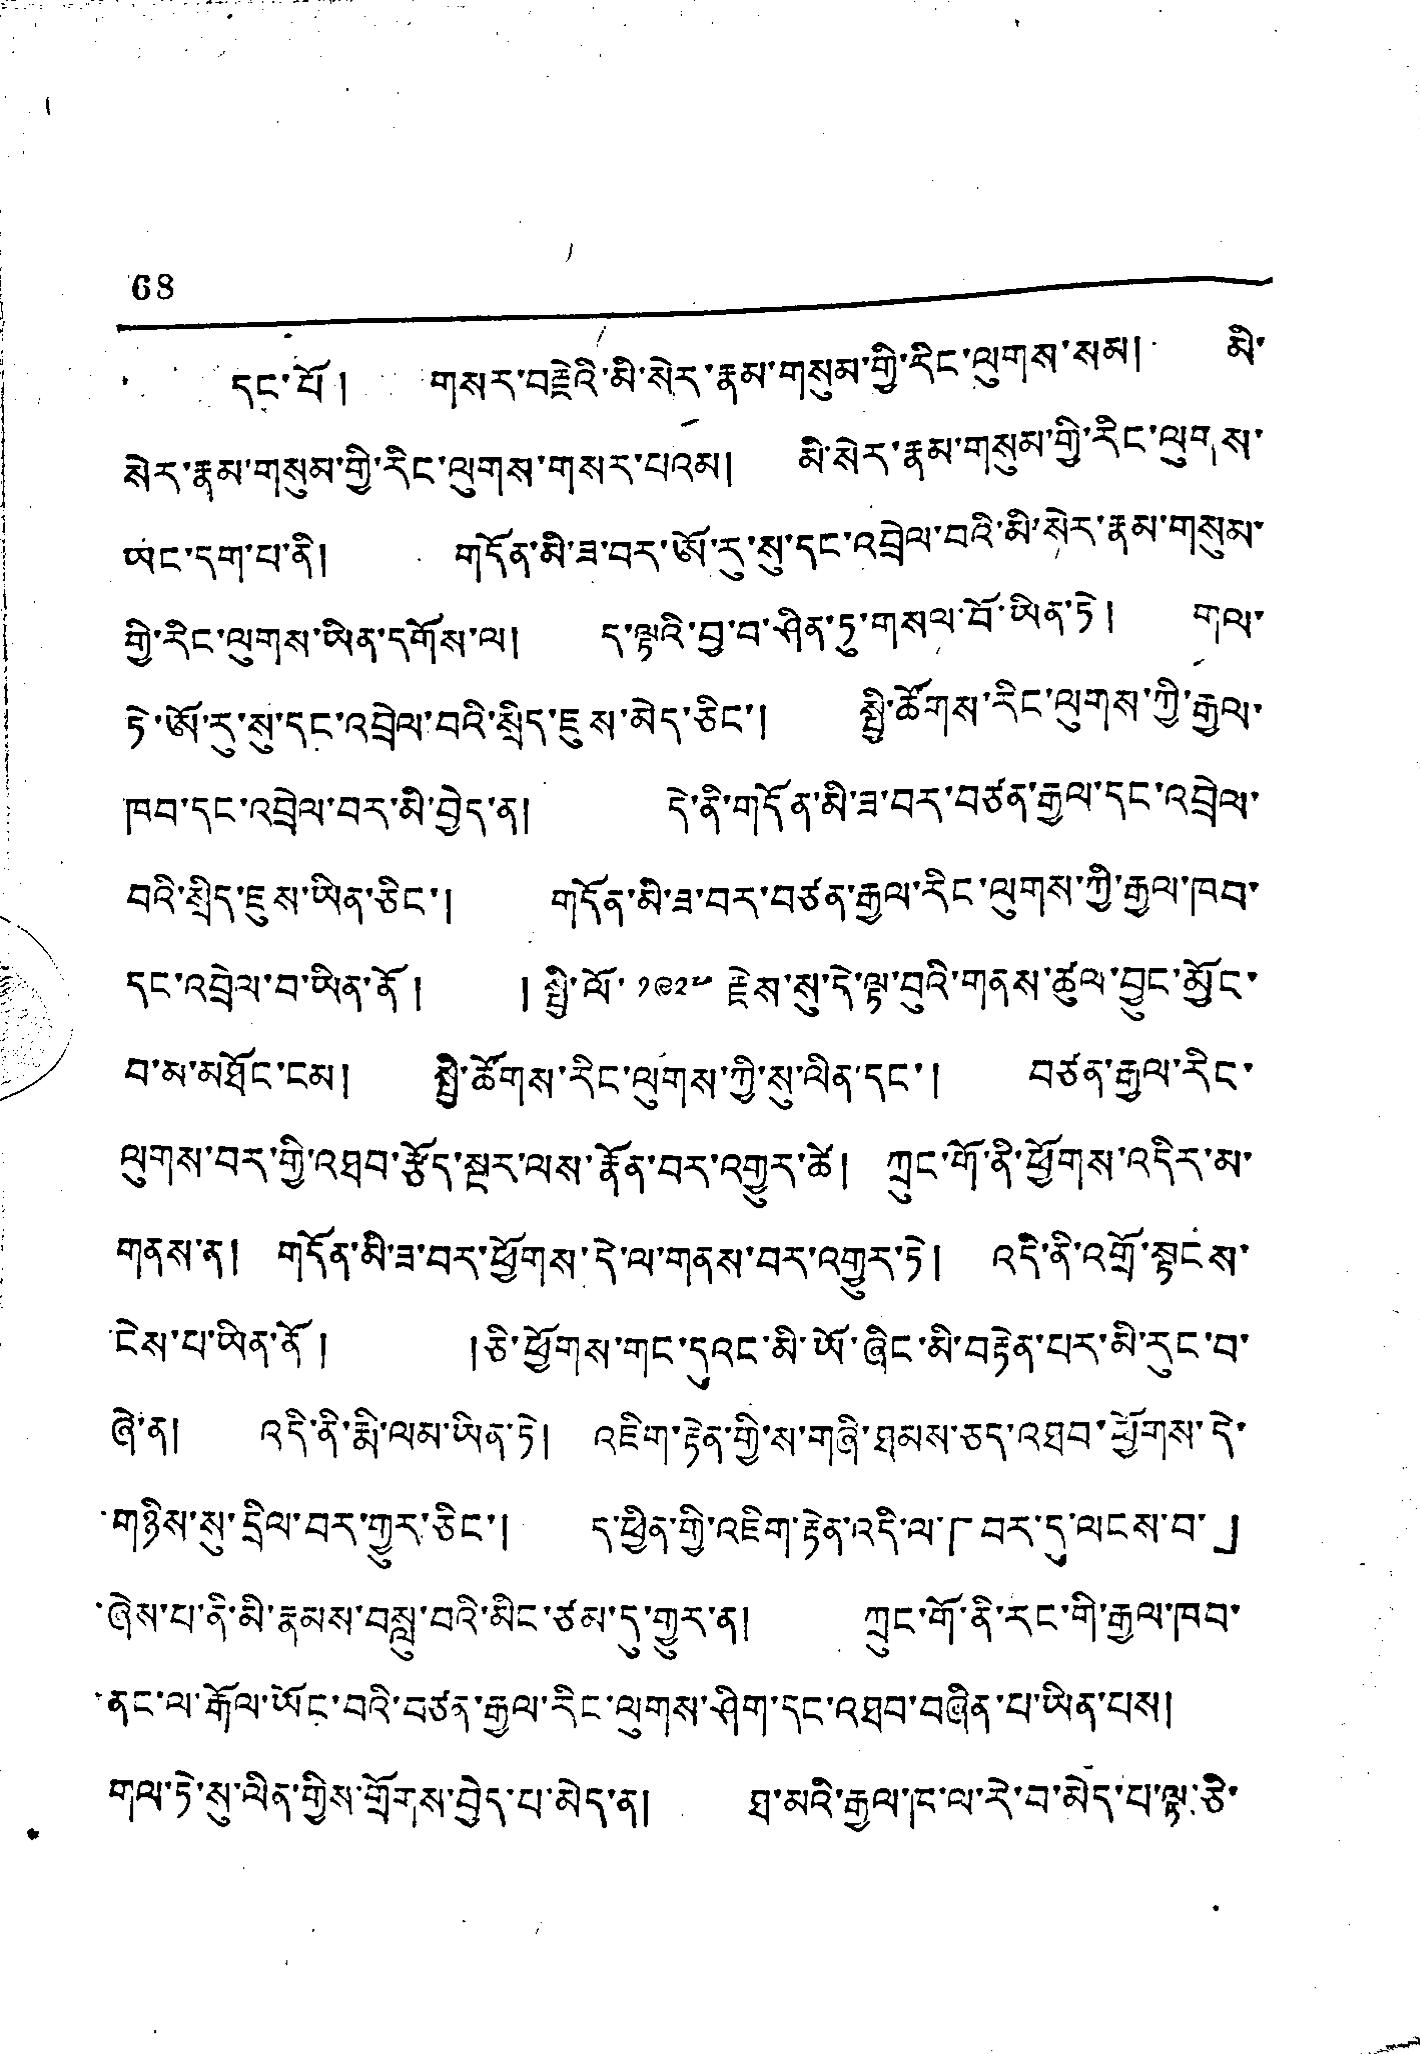68
དང་པོ། གསར་བརྗེའི་མི་སེར་རྣམ་གསུམ་གྱི་རིང་ལུགས་སམ། མི་
སེར་རྣམ་གསུམ་གྱི་རིང་ལུགས་གསར་པའམ། མི་སེར་རྣམ་གསུམ་གྱི་རིང་ལུགས་
ཡང་དག་པ་ནི། གདོན་མི་ཟ་བར་ཨོ་རུ་སུ་དང་འབྲེལ་བའི་མི་སེར་རྣམ་གསུམ་
གྱི་རིང་ལུགས་ཡིན་དགོས་ལ། ད་ལྟའི་བྱ་བ་ཤིན་ཏུ་གསལ་བོ་ཡིན་ཏེ། གལ་
ཏེ་ཨོ་རུ་སུ་དང་འབྲེལ་བའི་སྲིད་ཇུས་མེད་ཅིང་། སྤྱི་ཚོགས་རིང་ལུགས་ཀྱི་རྒྱལ་
ཁབ་དང་འབྲེལ་བར་མི་བྱེད་ན། དེ་ནི་གདོན་མི་ཟ་བར་བཙན་རྒྱལ་དང་འབྲེལ་
བའི་སྲིད་ཇུས་ཡིན་ཅིང་། གདོན་མི་ཟ་བར་བཙན་རྒྱལ་རིང་ལུགས་ཀྱི་རྒྱལ་ཁབ་
དང་འབྲེལ་བ་ཡིན་ནོ ། །སྤྱི་ལོ་ ༡༩༢༧ རྗེས་སུ་དེ་ལྟ་བུའི་གནས་ཚུལ་བྱུང་མྱོང་
བ་མ་མཐོང་ངམ། སྤྱི་ཚོགས་རིང་ལུགས་ཀྱི་སུ་ལིན་དང་། བཙན་རྒྱལ་རིང་
ལུགས་བར་གྱི་འཐབ་རྩོད་སྔར་ལས་རྣོན་བར་འགྱུར་ཚེ། ཀྲུང་གོ་ནི་ཕྱོགས་འདིར་མ་
གནས་ན། གདོན་མི་ཟ་བར་ཕྱོགས་དེ་ལ་གནས་བར་འགྱུར་ཏེ། འདི་ནི་འགྲོ་སྟངས་
ངེས་པ་ཡིན་ནོ། །ཅི་ཕྱོགས་གང་དུའང་མི་ཡོ་ཞིང་མི་བརྟེན་པར་མི་རུང་བ་
ཞེ་ན། འདི་ནི་མི་ལམ་ཡིན་ཏེ། འཇིག་རྟེན་གྱི་ས་གཞི་ཐམས་ཅད་འཐབ་ཕྱོགས་དེ་
གཉིས་སུ་དྲིལ་བར་གྱུར་ཅིང་། དུ་ཕྱིན་གྱི་འཇིག་རྟེན་འདི་ལ་「བར་དུ་ལངས་བ་」
ཞེས་པ་ནི་མི་རྣམས་བསླུ་བའི་མིང་ཙམ་དུ་གྱུར་ན། ཀྲུང་གོ་ནི་རང་གི་རྒྱལ་ཁབ་
ནང་ལ་རྒོལ་ཡོང་བའི་བཙན་རྒྱལ་རིང་ལུགས་ཤིག་དང་འཐབ་བཞིན་པ་ཡིན་པས།
གལ་ཏེ་སུ་ལིན་གྱིས་གྲོགས་བྱེད་པ་མེད་ན། ཐ་མའི་རྒྱལ་ང་ལ་རེ་བ་མེད་པ་ལྟ་ཅི་
